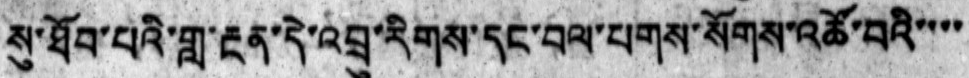སུ་ཐོབ་པའི་གླ་རྔན་དེ་འབྲུ་རིགས་དང་བལ་པགས་སོགས་འཚོ་བའི་་་་
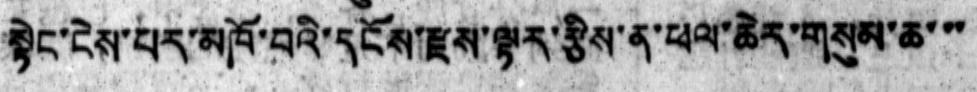སྟེང་ངེས་པར་མཁོ་བའི་དངོས་རྫས་ལྟར་རྩིས་ན་ཕལ་ཆེར་གསུམ་ཆ་་་
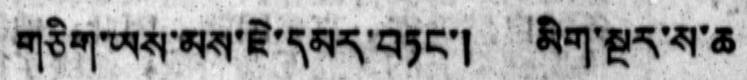གཅིག་ཡས་མས་ཇེ་དམར་བཏང་། མིག་སྔར་ས་ཆ
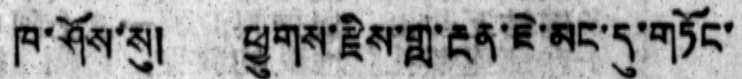ཁ་ཤོས་སུ། ཕྱུགས་རྫིས་གླ་རྔན་ཇེ་མང་དུ་གཏོང་
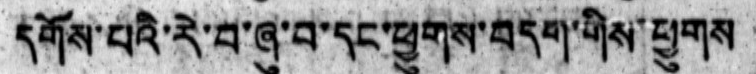དགོས་པའི་རེ་བ་ཞུ་བ་དང་ཕྱུགས་བདག་གིས་ཕྱུགས
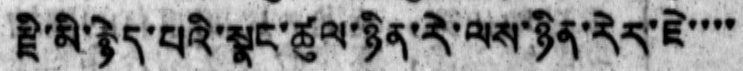རྗི་མི་རྙེད་པའི་སྣང་ཚུལ་ཉིན་རེ་ལས་ཉིན་རེར་ཇེ་་་་
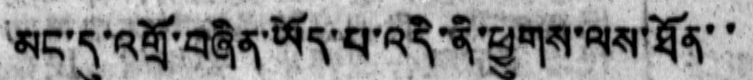ཨང་དུ་འགྲོ་བཞིན་ཡོད་པ་འདི་ནི་ཕྱུགས་ལས་ཐོན་་
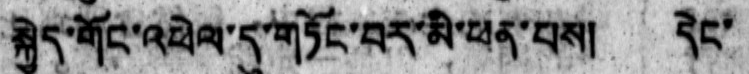སྐྱེད་གོང་འཕེལ་དུ་གཏོང་བར་མི་ཕན་པས། དེང་
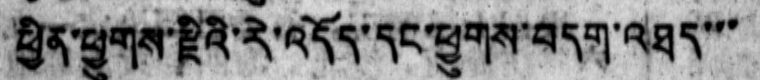ཕྱིན་ཕྱུགས་རྫིའི་རེ་འདོད་དང་ཕྱུགས་བདག་འཐད་་་
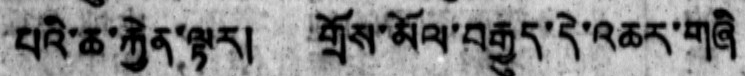པའི་ཆ་རྐྱེན་ལྟར། གྲོས་མོལ་བརྒྱུད་དེ་འཆར་གཞི
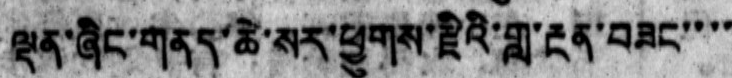ལྡན་ཞིང་གནད་ཆེ་སར་ཕྱུགས་རྗིའི་གླ་རྔན་བཟང་་་་
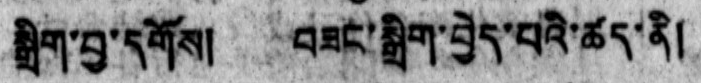སྒྲིག་བྱ་དགོས། བཟང་སྒྲིག་བྱེད་པའི་ཚད་ནི།
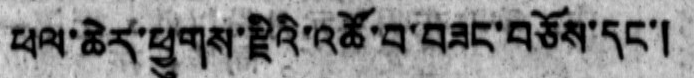ཕལ་ཆེར་ཕྱུགས་རྗིའི་འཚོ་བ་བཟང་བཅོས་དང་།
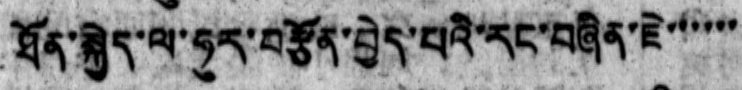ཐོན་སྐྱེད་ལ་ཧུར་བརྩོན་བྱེད་པའི་རང་བཞིན་ཏེ་་་་་་
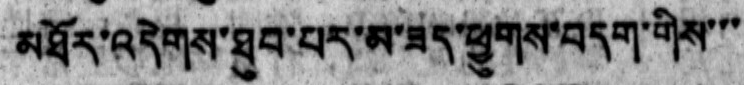མཐོར་འདེགས་ཐུབ་པར་མ་ཟད་ཕྱུགས་བདག་གིས་་་
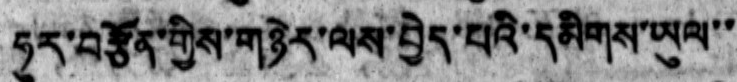ཧུར་བརྩོན་གྱིས་གཉེར་ལས་བྱེད་པའི་དམིགས་ཡུལ་་
